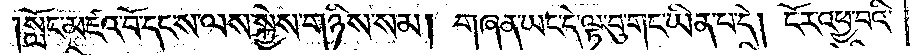སློང་མཛའ་བོ་དང་ས་ལས་སྐྱེས་གཉིས་སམ། གཞན་ཡང་དེ་ལྟ་བུ་གང་ཡིན་པ་དེ། ངོར་འཕྱ་བའི་
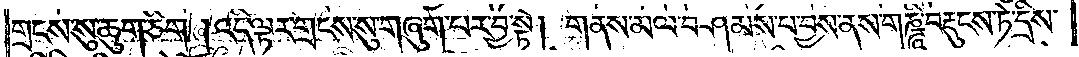གྲངས་སུ་ཆུག་ཅིག །འདི་ལྟར་གྲངས་སུ་གཞུག་པར་བྱ་སྟེ། གནས་མལ་བཤམས་པ་བྱས་ནས་གཎྜཱི་བརྡུངས་ཏེ་དྲིས་
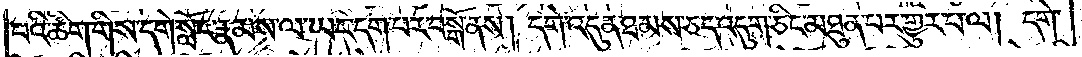པའི་ཚིག་གིས་དགེ་སློང་རྣམས་ལ་ཡང་དག་པར་བསྒོ་ནས། དགེ་འདུན་ཐམས་ཅད་འདུག་ཅིང་མཐུན་པར་གྱུར་པ་ལ། དགེ་
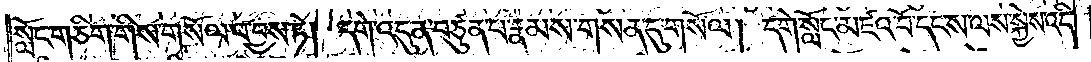སློང་གཅིག་གིས་གསོལ་བ་བྱས་ཏེ། དགེ་འདུན་བཙུན་པ་རྣམས་གསན་དུ་གསོལ། དགེ་སློང་མཛའ་བོ་དང་ས་ལས་སྐྱེས་འདི་
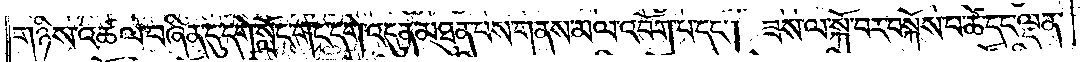གཉིས་འཚལ་བཞིན་དུ་དགེ་སློང་གང་དགེ་འདུན་མཐུན་པས་གནས་མལ་འབོག་པ་དང༌། ཟས་ལ་སྐོ་བར་བསྐོས་པ་ཚེ་དང་ལྡན་
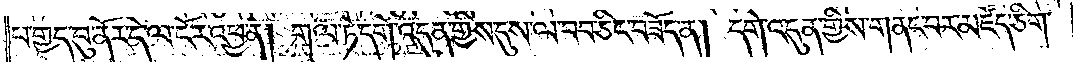པ་གྱད་བུ་ནོར་དེ་ལ་ངོར་འཕྱ་ན། གལ་ཏེ་དགེ་འདུན་གྱིས་དུས་ལ་བབ་ཅིང་བཟོད་ན། དགེ་འདུན་གྱིས་གནང་བར་མཛོད་ཅིག་
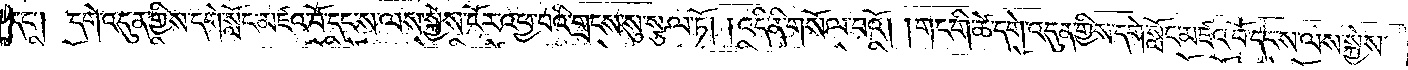དང༌། དགེ་འདུན་གྱིས་དགེ་སློང་མཛའ་བོ་དང་ས་ལས་སྐྱེས་ངོར་འཕྱ་བའི་གྲངས་སུ་སྩལ་ཏོ། །འདི་ནི་གསོལ་བའོ། །གང་གི་ཚེ་དགེ་འདུན་གྱིས་དགེ་སློང་མཛའ་བོ་དང་ས་ལས་སྐྱེས་
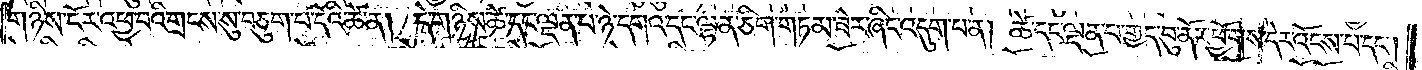གཉིས་ངོར་འཕྱ་བའི་གྲངས་སུ་བཅུག་པ་དེའི་ཚེ་ན། དེ་གཉིས་ཚེ་དང་ལྡན་པ་ཉེ་དགའ་དང་ལྷན་ཅིག་གཏམ་ཟེར་ཞིང་འདུག་པ་ན། ཚེ་དང་ལྡན་པ་གྱད་བུ་ནོར་ཕྱོགས་དེར་འོངས་པ་དང༌།
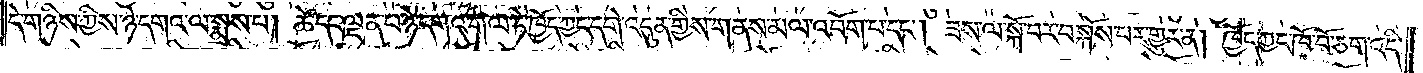དེ་གཉིས་ཀྱིས་ཉེ་དགའ་ལ་སྨྲས་པ། ཚེ་དང་ལྡན་པ་ཉེ་དགའ་གལ་ཏེ་ཁྱོད་ཀྱང་དགེ་འདུན་གྱིས་གནས་མལ་འབོག་པ་དང༌། ཟས་ལ་སྐོ་བར་བསྐོས་པར་གྱུར་ན། ཁྱོད་ཀྱང་ཁོ་བོ་ཅག་འདི་
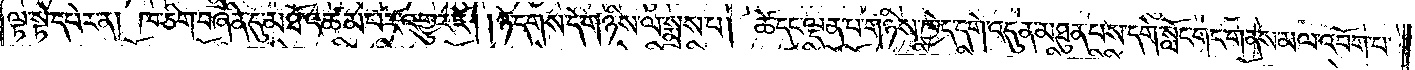ལྟ་སྟེ་དཔེར་ན། ཁ་ཅིག་བཞིན་དུ་མཐོ་འཚམ་པར་འགྱུར་རོ། །ཉེ་དགས་དེ་གཉིས་ལ་སྨྲས་པ། ཚེ་དང་ལྡན་པ་གཉིས་ཁྱེད་དགེ་འདུན་མཐུན་པས་དགེ་སློང་གང་གནས་མལ་འབོག་པ་
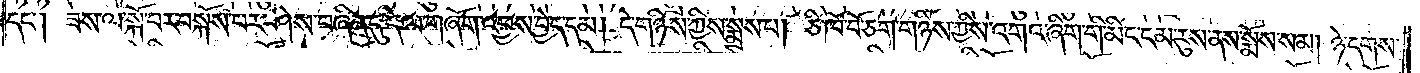དང༌། ཟས་ལ་སྐོ་བར་བསྐོས་པར་ཤེས་བཞིན་དུ་དེ་ལ་གཞོག་འཕྱས་བྱེད་དམ། དེ་གཉིས་ཀྱིས་སྨྲས་པ། ཅི་ཁོ་བོ་ཅག་གཉིས་ཀྱིས་འགའ་ཞིག་གི་མིང་ངམ་རུས་ནས་སྨོས་སམ། ཉེ་དགས་
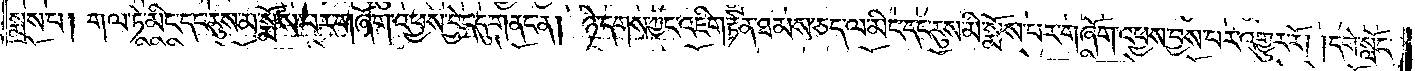སྨྲས་པ། གལ་ཏེ་མིང་དང་རུས་མ་སྨས་པར་གཞོག་འཕྱས་བྱེད་དུ་གནང་ན། ཉེ་དགས་ཀྱང་འཇིག་རྟེན་ཐམས་ཅད་ལ་མིང་དང་རུས་མི་སྨོས་པར་གཞོག་འཕྱས་བྱས་པར་འགྱུར་རོ། །དགེ་སློང་
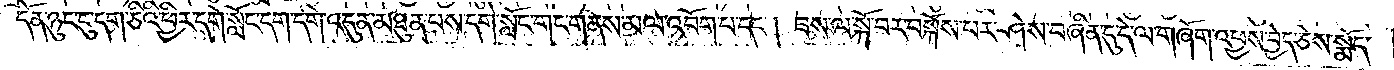དོན་ཉུང་ངུ་དག་ཅིའི་ཕྱིར་དགེ་སློང་དག་དགེ་འདུན་མཐུན་པས་དགེ་སློང་གང་གནས་མལ་འབོག་པ་དང༌། ཟས་ལ་སྐོ་བར་བསྐོས་པར་ཤེས་བཞིན་དུ་དེ་ལ་གཞོག་འཕྱས་བྱེད་ཅེས་སྨོད་
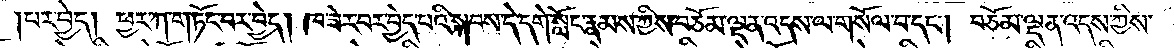པར་བྱེད། ཕྱར་ཀ་གཏོང་བར་བྱེད། ཁ་ཟེར་བར་བྱེད་པའི་སྐབས་དེ་དགེ་སློང་རྣམས་ཀྱིས་བཅོམ་ལྡན་འདས་ལ་གསོལ་བ་དང༌། བཅོམ་ལྡན་འདས་ཀྱིས་
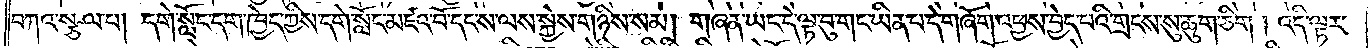བཀའ་སྩལ་པ། དགེ་སློང་དག་ཁྱེད་ཀྱིས་དགེ་སློང་མཛའ་བོ་དང་ས་ལས་སྐྱེས་གཉིས་སམ། གཞན་ཡང་དེ་ལྟ་བུ་གང་ཡིན་པ་དེ་གཞོག་འཕྱས་བྱེད་པའི་གྲངས་སུ་ཆུག་ཅིག །འདི་ལྟར་
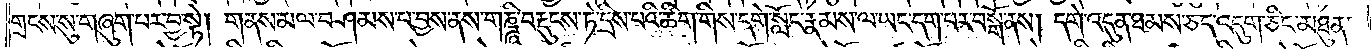གྲངས་སུ་གཞུག་པར་བྱ་སྟེ། གནས་མལ་བཤམས་པ་བྱས་ནས་གཎྜཱི་བརྡུངས་ཏེ་དྲིས་པའི་ཚིག་གིས་དགེ་སློང་རྣམས་ལ་ཡང་དག་པར་བསྒོ་ནས། དགེ་འདུན་ཐམས་ཅད་འདུག་ཅིང་མཐུན་
